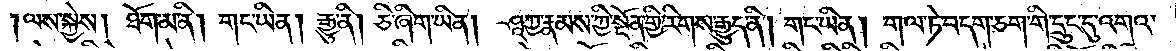ལས་སྐྱེས། ཐོག་མ་ནི། གང་ཡིན། རྒྱུ་ནི། ཅི་ཞིག་ཡིན། ཤཱཀྱ་རྣམས་ཀྱི་སྔོན་གྱི་རིགས་རྒྱུད་ནི། གང་ཡིན། གལ་ཏེ་བདག་ཅག་གི་དྲུང་དུ་འགའ་
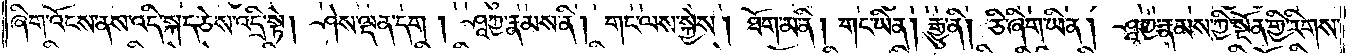ཞིག་འོངས་ནས་འདི་སྐད་ཅེས་འདྲི་སྟེ། ཤེས་ལྡན་དག །ཤཱཀྱ་རྣམས་ནི། གང་ལས་སྐྱེས། ཐོག་མ་ནི། གང་ཡིན། རྒྱུ་ནི། ཅི་ཞིག་ཡིན། ཤཱཀྱ་རྣམས་ཀྱི་སྔོན་གྱི་རིགས་
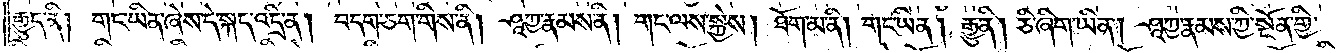རྒྱུད་ནི། གང་ཡིན་ཞེས་དེ་སྐད་འདྲི་ན། བདག་ཅག་གིས་ནི། ཤཱཀྱ་རྣམས་ནི། གང་ལས་སྐྱེས། ཐོག་མ་ནི། གང་ཡིན། རྒྱུ་ནི། ཅི་ཞིག་ཡིན། ཤཱཀྱ་རྣམས་ཀྱི་སྔོན་གྱི་
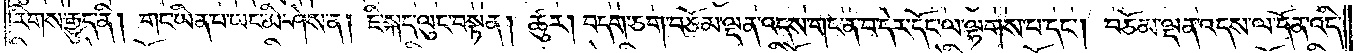རིགས་རྒྱུད་ནི། གང་ཡིན་པ་ཡང་མི་ཤེས་ན། ཇི་སྐད་ལུང་བསྟན། ཚུར། བདག་ཅག་བཅོམ་ལྡན་འདས་གང་ན་བ་དེར་དོང་ལ་ལྷགས་པ་དང༌། བཅོམ་ལྡན་འདས་ལ་དོན་འདི་
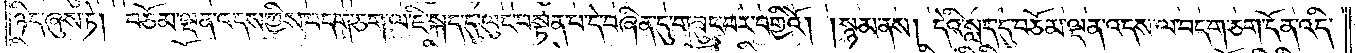ཉིད་ཞུས་ཏེ། བཅོམ་ལྡན་འདས་ཀྱིས་བདག་ཅག་ལ་ཇི་སྐད་དུ་ལུང་བསྟན་པ་དེ་བཞིན་དུ་གཟུང་བར་བགྱིའོ། །སྙམ་ནས། དེའི་སླད་དུ་བཅོམ་ལྡན་འདས་ལ་བདག་ཅག་དོན་འདི་
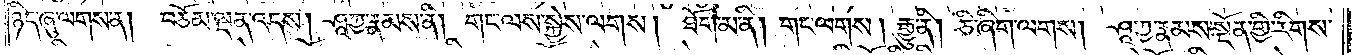ཉིད་ཞུ་ལགས་ན།  བཅོམ་ལྡན་འདས། ཤཱཀྱ་རྣམས་ནི། གང་ལས་སྐྱེས་ལགས། ཐོག་མ་ནི། གང་ལགས། རྒྱུ་ནི། ཅི་ཞིག་ལགས། ཤཱཀྱ་རྣམས་སྔོན་གྱི་རིགས་
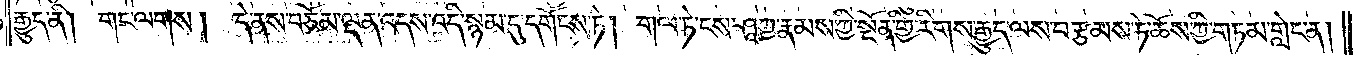རྒྱུད་ནི། གང་ལགས། དེ་ནས་བཅོམ་ལྡན་འདས་འདི་སྙམ་དུ་དགོངས་ཏེ། གལ་ཏེ་ངས་ཤཱཀྱ་རྣམས་ཀྱི་སྔོན་གྱི་རིགས་རྒྱུད་ལས་བརྩམས་ཏེ་ཆོས་ཀྱི་གཏམ་གླེང་ན། །
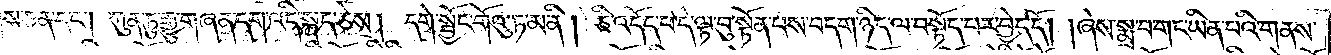མུ་སྟེགས་ཅན་དང༌། ཀུན་ཏུ་རྒྱུ་གཞན་དག་འདི་སྐད་ཅེས། དགེ་སྦྱོང་གོའུ་ཏ་མ་ནི། ཅི་འདོད་པ་དེ་ལྟ་བུ་སྟོན་པས་བདག་ཉིད་ལ་བསྟོད་པར་བྱེད་དོ། །ཞེས་སྨྲ་བ་གང་ཡིན་པའི་གནས་
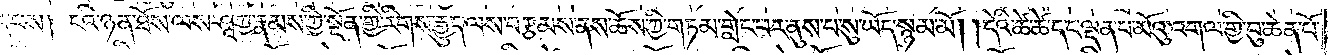འདི་ཡོད་པས། ངའི་ཉན་ཐོས་ལས་ཤཱཀྱ་རྣམས་ཀྱི་སྔོན་གྱི་རིགས་རྒྱུད་ལས་བརྩམས་ནས་ཆོས་ཀྱི་གཏམ་གླེང་བར་ནུས་པ་སུ་ཡོད་སྙམ་མོ། །དེའི་ཚེ་ཚེ་དང་ལྡན་པ་མོའུ་འགལ་གྱི་བུ་ཆེན་པོ་
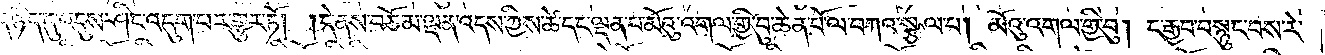དེ་ཉིད་དུ་འདུས་ཤིང་འདུག་པར་གྱུར་ཏོ། །དེ་ནས་བཅོམ་ལྡན་འདས་ཀྱིས་ཚེ་དང་ལྡན་པ་མོའུ་འགལ་གྱི་བུ་ཆེན་པོ་ལ་བཀའ་སྩལ་པ། མོའུ་འགལ་གྱི་བུ། ང་རྒྱབ་བསྙུང་བས་རེ་
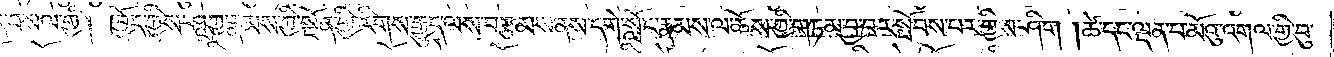དེ་བསལ་གྱི། ཁྱོད་ཀྱིས་ཤཱཀྱ་རྣམས་ཀྱི་སྔོན་གྱི་རིགས་རྒྱུད་ལས་བརྩམས་ནས་དགེ་སློང་རྣམས་ལ་ཆོས་ཀྱི་གཏམ་བྱ་བར་སྤོབས་པར་གྱིས་ཤིག །ཚེ་དང་ལྡན་པ་མོའུ་འགལ་གྱི་བུ་
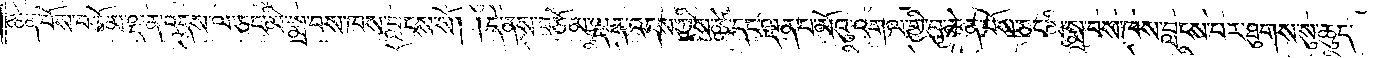ཆེན་པོས་བཅོམ་ལྡན་འདས་ལ་ཅང་མི་སྨྲ་བས་ཁས་བླངས་སོ། །དེ་ནས་བཅོམ་ལྡན་འདས་ཀྱིས་ཚེ་དང་ལྡན་པ་མོའུ་འགལ་གྱི་བུ་ཆེན་པོས་ཅང་མི་སྨྲ་བས་ཁས་བླངས་པར་ཐུགས་སུ་ཆུད་
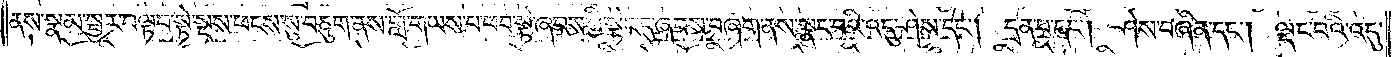ནས་སྣམ་སྦྱར་བལྟབ་སྟེ་སྔས་ཕངས་སུ་བཅུག་ནས་གློ་གཡས་པ་ཕབ་སྟེ་ཞབས་ཀྱི་སྟེང་དུ་ཞབས་བཞག་ནས་སྣང་བའི་འདུ་ཤེས་དང༌། དྲན་པ་དང༌། ཤེས་བཞིན་དང༌། ལྡང་བའི་འདུ་
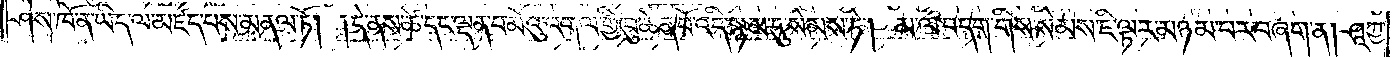ཤེས་ཁོ་ན་ཡིད་ལ་མཛད་པས་མནལ་ཏོ། །དེ་ནས་ཚེ་དང་ལྡན་པ་མོའུ་འགལ་གྱིས་བུ་ཆེན་པོ་འདི་སྙམ་དུ་སེམས་ཏེ། མ་ལ་བདག་གིས་སེམས་ཇི་ལྟར་མཉམ་པར་བཞག་ན། ཤཱཀྱ་
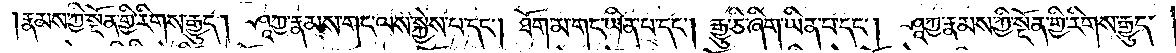།རྣམས་ཀྱི་སྔོན་གྱི་རིགས་རྒྱུད། ཤཱཀྱ་རྣམས་གང་ལས་སྐྱེས་པ་དང༌། ཐོག་མ་གང་ཡིན་པ་དང༌། རྒྱུ་ཅི་ཞིག་ཡིན་པ་དང༌། ཤཱཀྱ་རྣམས་ཀྱི་སྔོན་གྱི་རིགས་རྒྱུད་
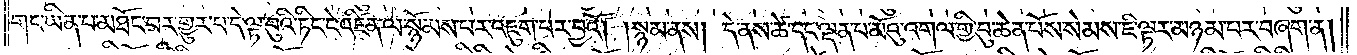གང་ཡིན་པ་མཐོང་བར་གྱུར་པ་དེ་ལྟ་བུའི་ཏིང་ངེ་འཛིན་ལ་སྙོམས་པར་འཇུག་པར་བྱའོ། །སྙམ་ནས། དེ་ནས་ཚེ་དང་ལྡན་པ་མོའུ་འགལ་གྱི་བུ་ཆེན་པོས་སེམས་ཇི་ལྟར་མཉམ་པར་བཞག་ན།
